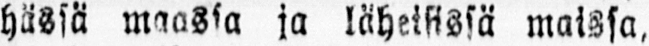hässä maassa ja läheisissä maissa,
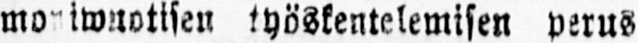moniwuotisen työskentelemisen perus
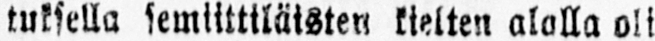tuksella semiittiläisten kielten alalla oli
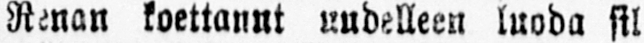Renan koettanut uudelleen luoda sil-
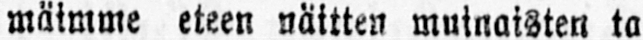mäimme eteen näitten muinaisten ta
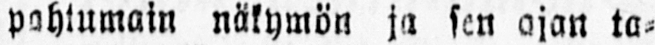pahtumain näkymön ja sen ajan ta-
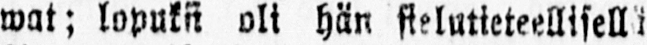wat; lopuksi oli hän sielutieteellisellä
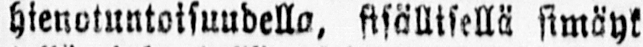hienotuntoisuudella, sisällisellä simäyk
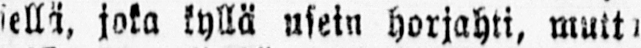sellä, joka kyllä usein horjahti, mutta
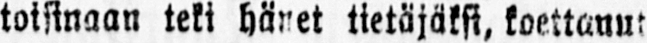toisinaan teki hänet tietäjäksi, koettanut
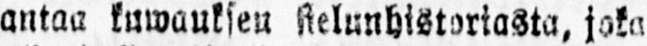antaa kuwauksen sielunhistoriasta, joka
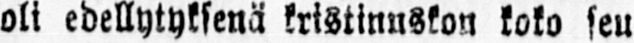oli edellytyksenä kristinuskon koko sen
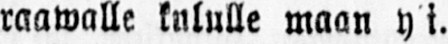raawalle kululle maan yli.
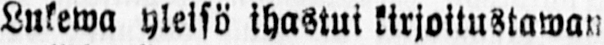Lukewa yleisö ihastui kirjoitustawan
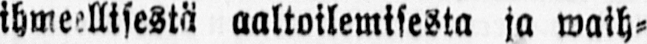ihmeellisestä aaltoilemisesta ja waih-
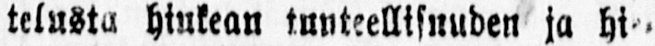telusta hiukean tunteellisuuden ja hie-
